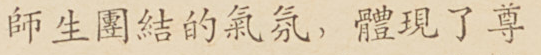師生團結的氣氛，體現了尊
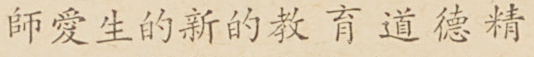師愛生的新的教育道德精
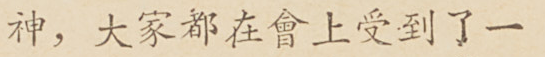神，大家都在會上受到了一
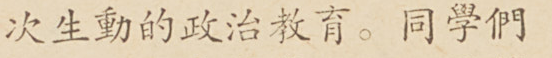次生動的政治教育。同學們
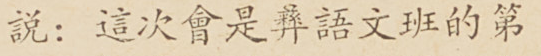說：這次會是彝語文班的第
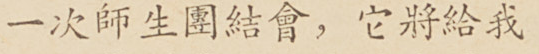一次師生團結會，它將給我
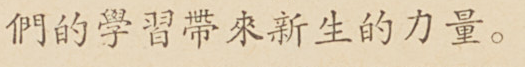們的學習帶來新生的力量。
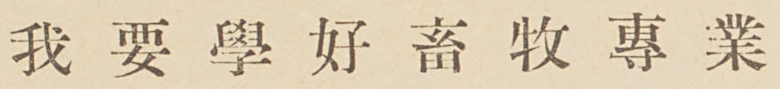我 要 學 好 畜 牧 專 業
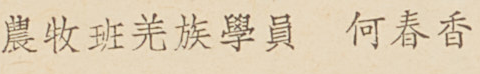農牧班羌族學員 何春香
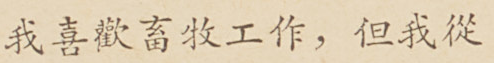我喜歡畜牧工作，但我從
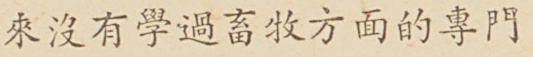來沒有學過畜牧方面的專門
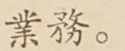業務。
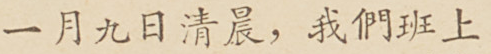一月九日清晨，我們班上
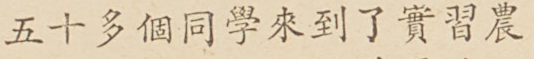五十多個同學來到了實習農
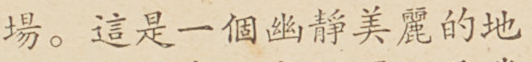場。這是一個幽靜美麗的地
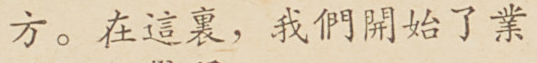方。在這裏，我們開始了業
